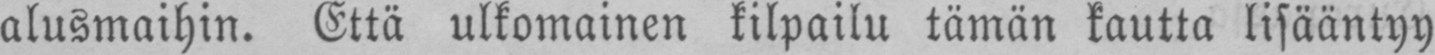alusmaihin. Että ulkomainen kilpailu tämän kautta lisääntyy
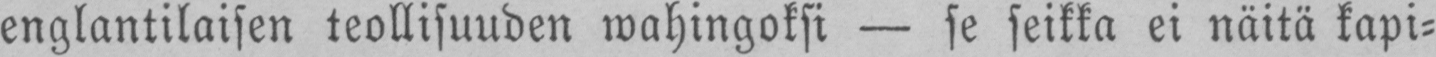englantilaisen teollisuuden wahingoksi — se seikka ei näitä kapi-
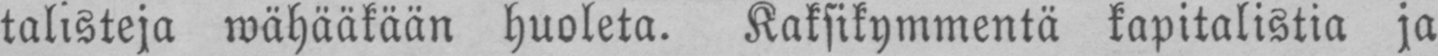talisteja wähääkään huoleta. Kaksikymmentä kapitalistia ja
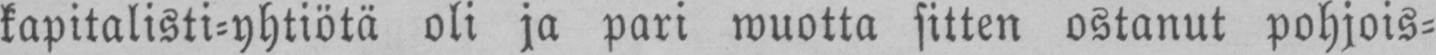kapitalisti-yhtiötä oli ja pari wuotta sitten ostanut pohjois-
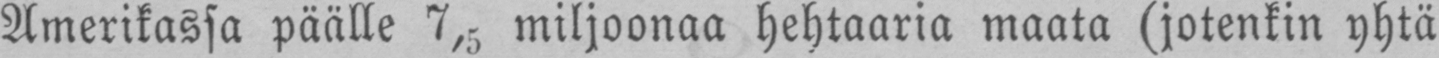Amerikassa päälle 7,5 miljoonaa hehtaaria maata (jotenkin yhtä
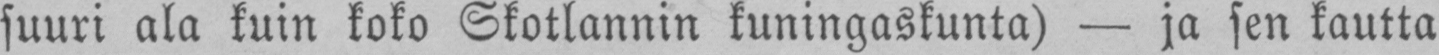suuri ala kuin koko Skotlannin kuningaskunta) — ja sen kautta
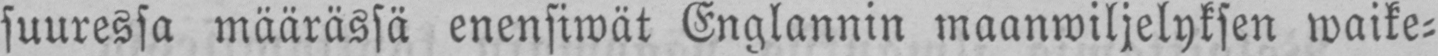suuressa määrässä enensiwät Englannin maanwiljelyksen waike-
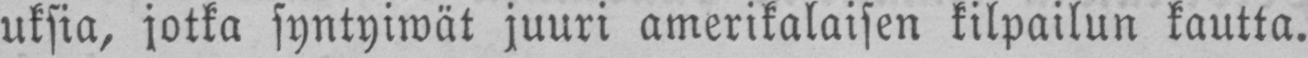uksia, jotka syntyiwät juuri amerikalaisen kilpailun kautta.
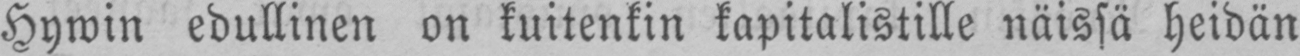Hywin edullinen on kuitenkin kapitalistille näissä heidän
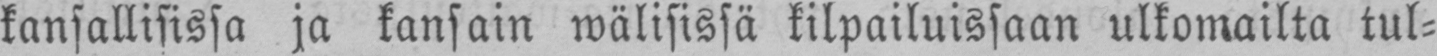kansallisissa ja kansain wälisissä kilpailuissaan ulkomailta tul-
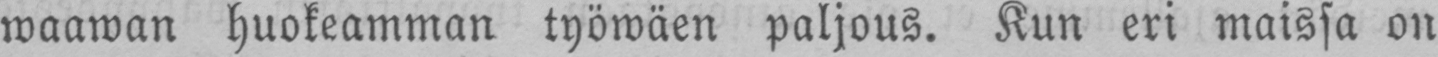waawan huokeamman työwäen paljous. Kun eri maissa on
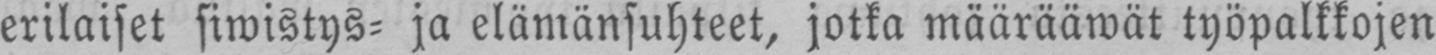erilaiset siwistys- ja elämänsuhteet, jotka määrääwät työpalkkojen
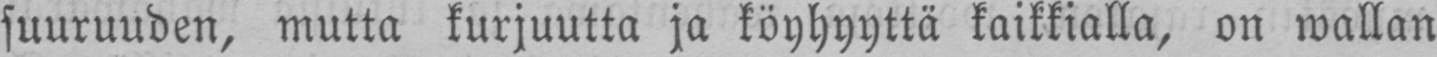suuruuden, mutta kurjuutta ja köyhyyttä kaikkialla, on wallan
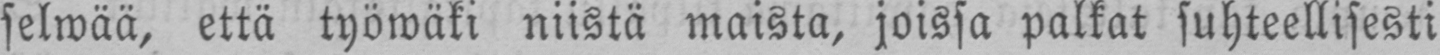selwää, että työwäki niistä maista, joissa palkat suhteellisesti
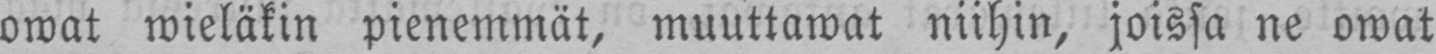owat wieläkin pienemmät, muuttawat niihin, joissa ne owat
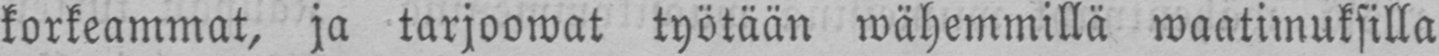korkeammat, ja tarjoowat työtään wähemmillä waatimuksilla
